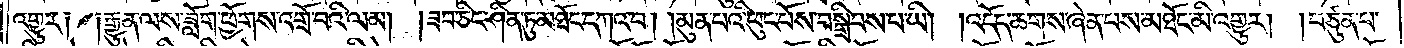འགྱུར༑ ༑རྒྱུན་ལས་ཟློག་ཕྱོགས་འགྲོ་བའི་ལམ། །ཟབ་ཅིང་ཤིན་ཏུ་མཐོང་དཀའ་བ། །མུན་པའི་ཕུང་པོས་བསྒྲིབས་པ་ཡི། །འདོད་ཆགས་ཞེན་པས་མཐོང་མི་འགྱུར། །བཙུན་པ་
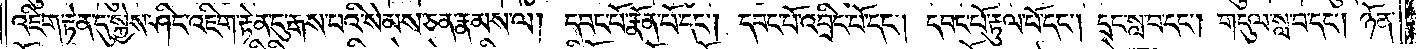འཇིག་རྟེན་དུ་སྐྱེས་ཤིང་འཇིག་རྟེན་དུ་རྒས་པའི་སེམས་ཅན་རྣམས་ལ། དབང་པོ་རྣོན་པོ་དང༌། དབང་པོ་འབྲིང་པོ་དང༌། དབང་པོ་རྟུལ་པོ་དང༌། དྲང་སླ་བ་དང༌། གདུལ་སླ་བ་དང༌། ཉོན་
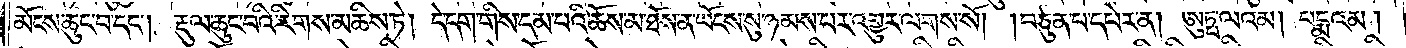མོངས་ཆུང་བ་དང༌། རྡུལ་ཆུང་བའི་རིགས་མཆིས་ཏེ། དེ་དག་གིས་དམ་པའི་ཆོས་མ་ཐོས་ན་ཡོངས་སུ་ཉམས་པར་འགྱུར་ལགས་སོ། །བཙུན་པ་དཔེར་ན། ཨུཏྤ་ལའམ། པདྨའམ།
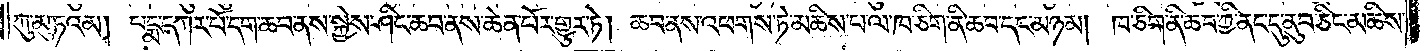ཀུ་མུ་ཏའམ། པདྨ་དཀར་པོ་དག་ཆབ་ནས་སྐྱེས་ཤིང་ཆབ་ནས་ཆེན་པོར་གྱུར་ཏེ། ཆབ་ནས་འཕགས་ཏེ་མཆིས་པ་ལ་ཁ་ཅིག་ནི་ཆབ་དང་མཉམ། ཁ་ཅིག་ནི་ཆབ་ཀྱི་ནང་དུ་ནུབ་ཅིང་མཆིས་
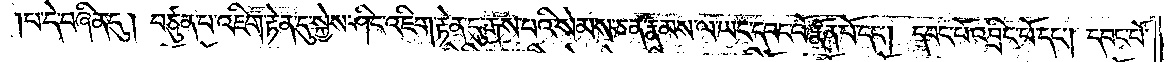།པ་དེ་བཞིན་དུ། བཙུན་པ་འཇིག་རྟེན་དུ་སྐྱེས་ཤིང་འཇིག་རྟེན་དུ་རྒས་པའི་སེམས་ཅན་རྣམས་ལ་ཡང་དབང་པོ་རྣོན་པོ་དང༌། དབང་པོ་འབྲིང་པོ་དང༌། དབང་པོ་
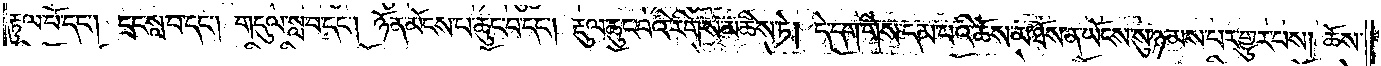རྟུལ་པོ་དང༌། དྲང་སླ་བ་དང༌། གདུལ་སླ་བ་དང༌། ཉོན་མོངས་པ་ཆུང་བ་དང༌། རྡུལ་ཆུང་བའི་རིགས་མཆིས་ཏེ། དེ་དག་གིས་དམ་པའི་ཆོས་མ་ཐོས་ན་ཡོངས་སུ་ཉམས་པར་གྱུར་པས། ཆོས་
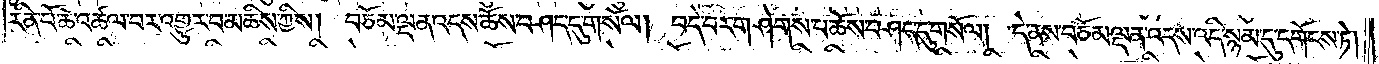རིན་པོ་ཆེ་འཚལ་བར་འགྱུར་བ་མཆིས་ཀྱིས། བཅོམ་ལྡན་འདས་ཆོས་བཤད་དུ་གསོལ། བདེ་བར་གཤེགས་པ་ཆོས་བཤད་དུ་གསོལ། དེ་ནས་བཅོམ་ལྡན་འདས་འདི་སྙམ་དུ་དགོངས་ཏེ།
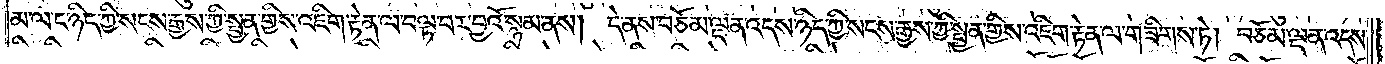མ་ལ་ང་ཉིད་ཀྱི་སངས་རྒྱས་ཀྱི་སྤྱན་གྱིས་འཇིག་རྟེན་ལ་བལྟ་བར་བྱའོ་སྙམ་ནས། དེ་ནས་བཅོམ་ལྡན་འདས་ཉིད་ཀྱི་སངས་རྒྱས་ཀྱི་སྤྱན་གྱིས་འཇིག་རྟེན་ལ་གཟིགས་ཏེ། བཅོམ་ལྡན་འདས་
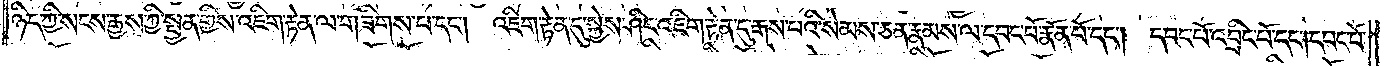ཉིད་ཀྱི་སངས་རྒྱས་ཀྱི་སྤྱན་གྱིས་འཇིག་རྟེན་ལ་གཟིགས་པ་དང༌། འཇིག་རྟེན་དུ་སྐྱེས་ཤིང་འཇིག་རྟེན་དུ་རྒས་པའི་སེམས་ཅན་རྣམས་ལ་དབང་པོ་རྣོན་པོ་དང༌། དབང་པོ་འབྲིང་པོ་དང༌། དབང་པོ་
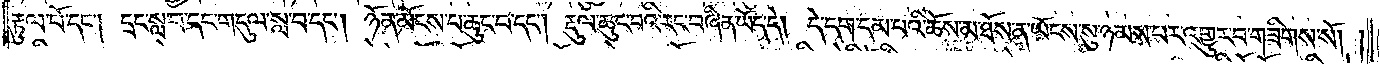རྟུལ་པོ་དང༌། དྲང་སླ་བ་དང་གདུལ་སླ་བ་དང༌། ཉོན་མོངས་པ་ཆུང་བ་དང༌། རྡུལ་ཆུང་བའི་རང་བཞིན་ཡོད་དེ། དེ་དག་དམ་པའི་ཆོས་མ་ཐོས་ན་ཡོངས་སུ་ཉམས་པར་འགྱུར་བ་གཟིགས་སོ། །
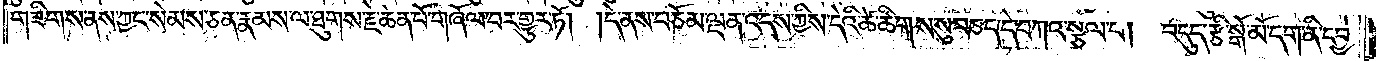གཟིགས་ནས་ཀྱང་སེམས་ཅན་རྣམས་ལ་ཐུགས་རྗེ་ཆེན་པོ་གཞོལ་བར་གྱུར་ཏོ། །དེ་ནས་བཅོམ་ལྡན་འདས་ཀྱིས་དེའི་ཚེ་ཚིགས་སུ་བཅད་དེ་བཀའ་སྩལ་པ། བདུད་རྩི་སྒོ་མོ་དག་ནི་དབྱེ་
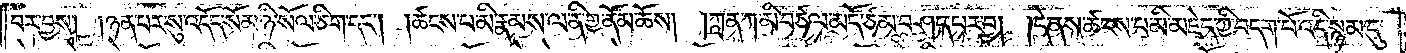བར་བྱས། །ཉན་པར་སུ་འདོད་སོམ་ཉི་སོལ་ཅིག་དང༌། །ཚངས་པ་མི་རྣམས་ལ་ནི་གྱ་ནོམ་ཆོས། །ཀླན་ཀ་མི་བཙལ་མདོ་ཙམ་བཤད་པར་བྱ། །དེ་ནས་ཚངས་པ་མི་མཇེད་ཀྱི་བདག་པོ་འདི་སྙམ་དུ་
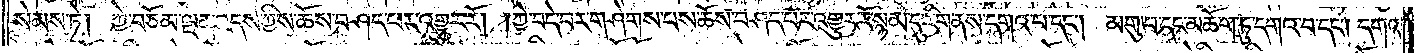སེམས་ཏེ། ཀྱེ་བཅོམ་ལྡན་འདས་ཀྱིས་ཆོས་བཤད་པར་འགྱུར་རོ། །ཀྱེ་བདེ་བར་གཤེགས་པས་ཆོས་བཤད་པར་འགྱུར་རོ་སྙམ་དུ་རིག་ནས་དགའ་བ་དང༌། མགུ་བ་དང་མཆོག་ཏུ་དགའ་བ་དང༌། དགའ་
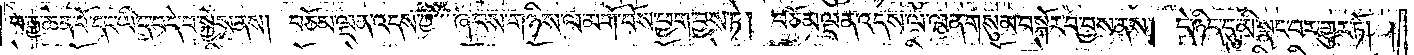བ་རྒྱ་ཆེན་པོ་དང་ཡིད་བདེ་བ་སྐྱེས་ནས། བཅོམ་ལྡན་འདས་ཀྱི་ཞབས་གཉིས་ལ་མགོ་བོས་ཕྱག་བྱས་ཏེ། བཅོམ་ལྡན་འདས་ལ་ལན་གསུམ་བསྐོར་བ་བྱས་ནས། དེ་ཉིད་དུ་མི་སྣང་བར་གྱུར་ཏོ། །
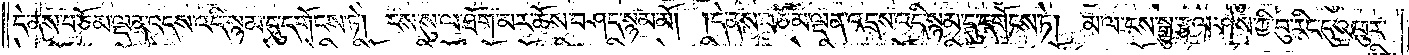དེ་ནས་བཅོམ་ལྡན་འདས་འདི་སྙམ་དུ་དགོངས་ཏེ། ངས་སུ་ལ་ཐོག་མར་ཆོས་བཤད་སྙམ་མོ། །དེ་ནས་བཅོམ་ལྡན་འདས་འདི་སྙམ་དུ་དགོངས་ཏེ། མ་ལ་ངས་སྒྱུ་རྩལ་ཤེས་ཀྱི་བུ་རིང་དུ་འཕུར་
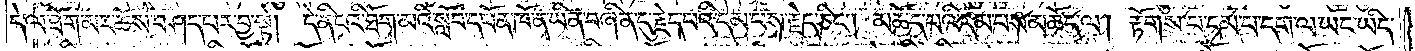དེ་ལ་ཐོག་མར་ཆོས་བཤད་པར་བྱ་སྟེ། དེ་ནི་ངའི་ཐོག་མའི་སློབ་དཔོན་ཁོ་ན་ཡིན་བཞིན་དུ་རྗེད་པའི་དམ་པས་རྗེད་ཅིང༌། མཆོད་པའི་དམ་པས་མཆོད་ལ། རྟོགས་པ་དམ་པ་དག་ལ་ཡང་ཡིད་
